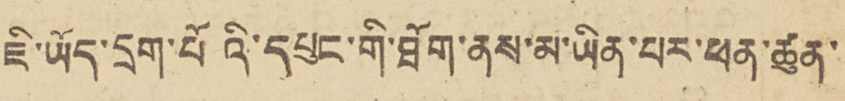ཇི་ཡོད་དྲག་པོའི་དཔུང་གི་ཐོག་ནས་མ་ཡིན་པར་ཕན་ཚུན་
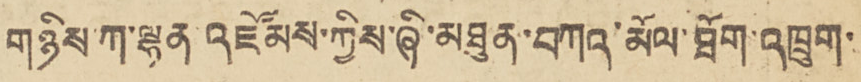གཉིས་ཀ་ལྷན་འཛོམས་ཀྱིས་ཞི་མཐུན་བཀའ་མོལ་ཐོག་འཁྲུག་
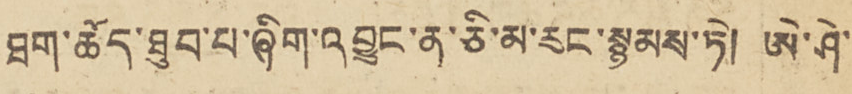ཐག་ཆོད་ཐུབ་པ་ཞིག་འབྱུང་ན་ཅི་མ་རུང་སྙམས་ཏེ། ཨེ་ཤེ་
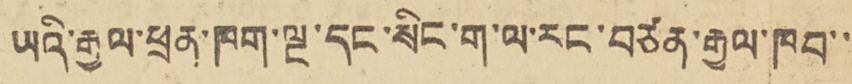ཡའི་རྒྱལ་ཕྲན་ཁག་ལྔ་དང་སིང་ག་ལ་རང་བཙན་རྒྱལ་ཁབ་་་
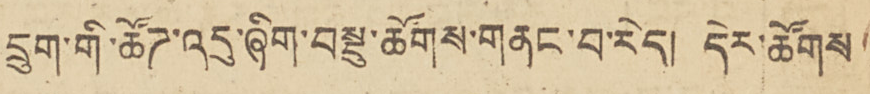དྲུག་གི་ཚོཊ་འདུ་ཞིག་བསྡུ་ཚོགས་གནང་བ་རེད། དེར་ཚོགས་
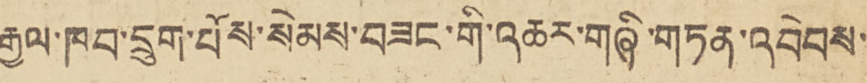རྒྱལ་ཁབ་དྲུག་པོས་སེམས་བཟང་གི་འཆར་གཞི་གཏན་འབེབས་
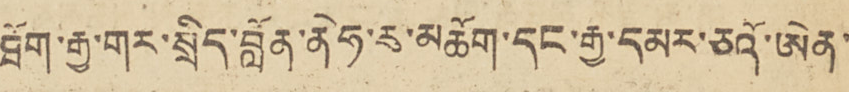ཐོག་རྒྱ་གར་སྲིད་བློན་ནེཧ་རུ་མཆོག་དང་རྒྱ་དམར་ཅའོ་ཨེན་
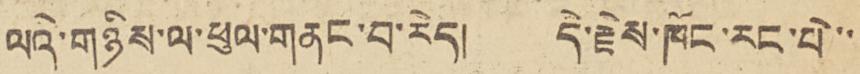ལའི་གཉིས་ལ་ཕུལ་གནང་བ་རེད། དེ་རྗེས་ཁོང་རང་པེ་་
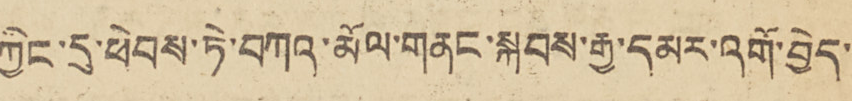ཀྱིང་དུ་ཕེབས་ཏེ་བཀའ་མོལ་གནང་སྐབས་རྒྱ་དམར་འགོ་བྱེད་
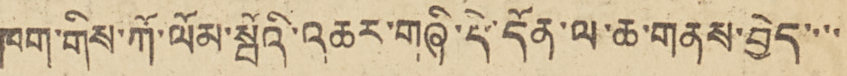ཁག་གིས་ཀོ་ལོམ་སྤོའི་འཆར་གཞི་དེ་དོན་ལ་ཆ་གནས་བྱེད་་་་
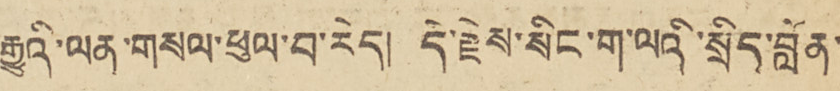རྒྱུའི་ལན་གསལ་ཕུལ་བ་རེད། དེ་རྗེས་སིང་ག་ལའི་སྲིད་བློན་
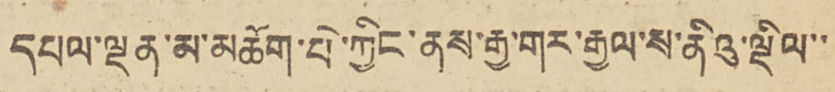དཔལ་ལྡན་མ་མཆོག་པེ་ཀྱིང་ནས་རྒྱ་གར་རྒྱལ་ས་ནིའུ་ལྡིལ་་
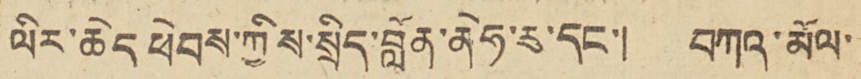ལིར་ཆེད ཕེབས་ཀྱིས་སྲིད་བློན་ནེཧརུ་དང་། བཀའ་མོལ་
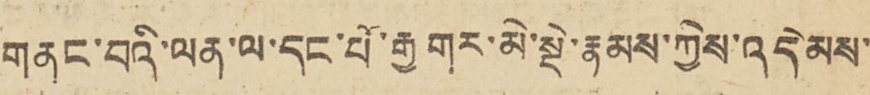གནང་བའི་ལན་ལ་དང་པོ་རྒྱ་གར་མེ་སྡེ་རྣམས་ཀྱིས་འདེམས་
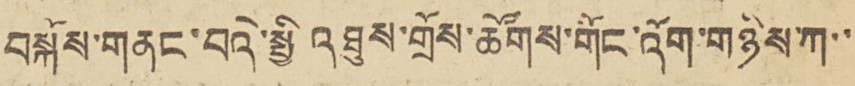བསྐོས་གནང་བའི་སྤྱི འཐུས་གྲོས་ཚོགས་གོང་འོག་གཉིས་ཀ་་
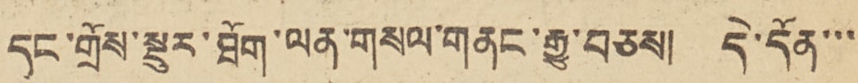དང་གྲོས་སྡུར་ཐོག་ལན་གསལ་གནང་རྒྱུ་བཅས། དེ་དོན་་་
